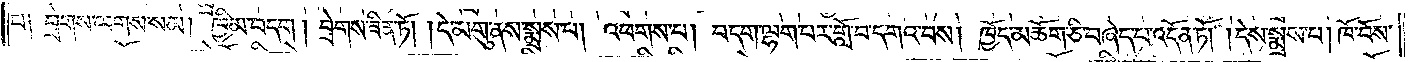པ༑ བྲེགས་ལགས་སམ། ཁྱིམ་བདག། བྲེགས་ཟིན་ཏོ། །དེ་མགུ་ནས་སྨྲས་པ། འཕགས་པ། བདག་ལྷག་པར་གློ་བ་དགའ་བས། ཁྱོད་མཆོག་ཅི་བཞེད་པ་འདོན་ཏོ། །དེས་སྨྲས་པ། ཁོ་བོས་
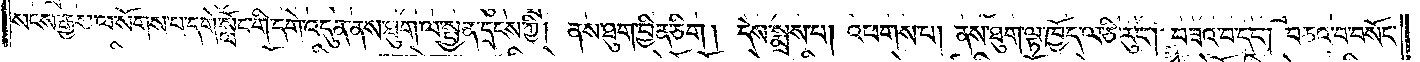སངས་རྒྱས་ལ་སོགས་པ་དགེ་སློང་གི་དགེ་འདུན་ནས་ཐུག་ལ་སྤྱན་དྲངས་ཀྱི། ནས་ཐུག་བྱིན་ཅིག། དེས་སྨྲས་པ། འཕགས་པ། ནས་ཐུག་ལྟ་ཁྱོད་ལ་ཅི་རུང༌། བཟའ་བ་དང༌། བཅའ་བ་བསོད་
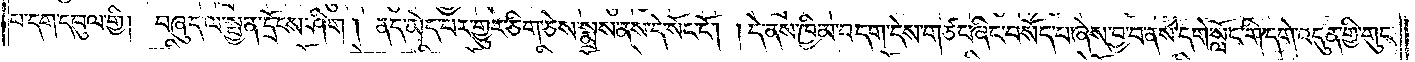པ་དག་དབུལ་གྱི། བཞུད་ལ་སྤྱན་དྲོངས་ཤིག །ནད་མེད་པར་གྱུར་ཅིག་ཅེས་སྨྲས་ནས་དེ་སོང་ངོ༌། །དེ་ནས་ཁྱིམ་བདག་དེས་གཙང་ཞིང་བསོད་པ་ཞེས་བྱ་བ་ནས་དགེ་སློང་གི་དགེ་འདུན་གྱི་གུང་
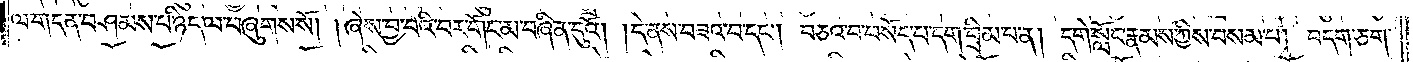ལ་གདན་བཤམས་པ་ཉིད་ལ་བཞུགས་སོ། །ཞེས་བྱ་བའི་བར་གོང་མ་བཞིན་དུའོ། །དེ་ནས་བཟའ་བ་དང༌། བཅའ་བ་བསོད་པ་དག་བྲིམ་པ་ན། དགེ་སློང་རྣམས་ཀྱིས་བསམ་པ། བདག་ཅག་
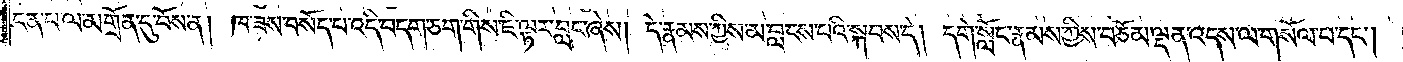ངན་པ་ལ་མགྲོན་དུ་བོས་ན། ཁ་ཟས་བསོད་པ་འདི་བདག་ཅག་གིས་ཇི་ལྟར་བླང་ཞེས། དེ་རྣམས་ཀྱིས་མ་བླངས་པའི་སྐབས་དེ། དགེ་སློང་རྣམས་ཀྱིས་བཅོམ་ལྡན་འདས་ལ་གསོལ་པ་དང༌།
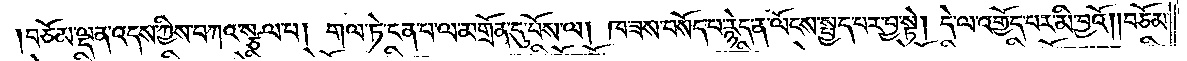བཅོམ་ལྡན་འདས་ཀྱིས་བཀའ་སྩལ་པ། གལ་ཏེ་ངན་པ་ལ་མགྲོན་དུ་པོས་ལ། ཁ་ཟས་བསོད་པ་རྙེད་ན་ལོངས་སྤྱད་པར་བྱ་སྟེ། དེ་ལ་འགྱོད་པར་མི་བྱའོ། །བཅོམ་
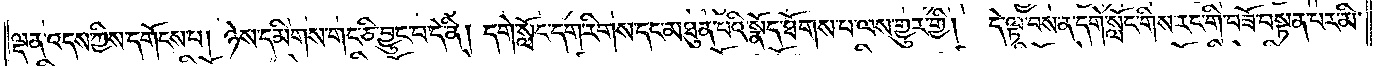ལྡན་འདས་ཀྱིས་དགོངས་པ། ཉེས་དམིགས་གང་ཅི་བྱུང་བ་དེ་ནི། དགེ་སློང་དག་རིགས་དང་མཐུན་པའི་སྣོད་ཐོགས་པ་ལས་གྱུར་གྱི།<gap>དེ་ལྟ་བས་ན་དགེ་སློང་གིས་རང་གི་བཟོ་བསྟན་པར་མི་
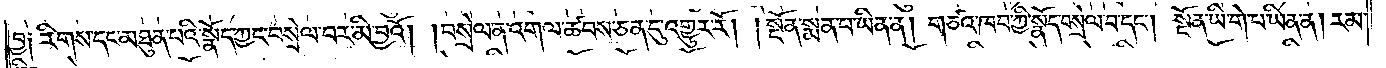བྱ༑ རིགས་དང་མཐུན་པའི་སྣོད་ཀྱང་བསྲེལ་བར་མི་བྱའོ། །བསྲེལ་ན་འགལ་ཚབས་ཅན་དུ་འགྱུར་རོ། །སྔོན་སྨན་པ་ཡིན་ན། གཙའ་ཁབ་ཀྱི་སྣོད་བསྲེལ་བ་དང༌། སྔོན་ཡི་གེ་པ་ཡིན་ན། རམ་
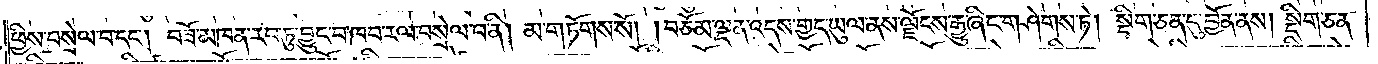ཕྱིས་བསྲེལ་བ་དང༌། བཟོ་མཁན་རབ་ཏུ་བྱུང་བ་ཁབ་རལ་བསྲེལ་བ་ནི། མ་གཏོགས་སོ། །བཅོམ་ལྡན་འདས་གྱད་ཡུལ་ནས་ལྗོངས་རྒྱུ་ཞིང་གཤེགས་ཏེ། སྡིག་ཅན་དུ་བྱོན་ནས། སྡིག་ཅན་
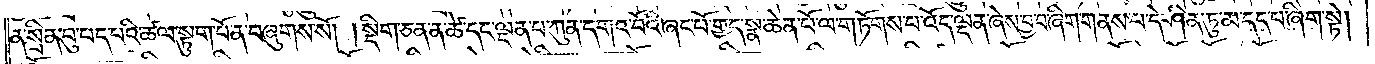ན་སྲིན་བུ་པད་པའི་ཚལ་སྟུག་པོ་ན་བཞུགས་སོ། །སྡིག་ཅན་ན་ཚེ་དང་ལྡན་པ་ཀུན་དགའ་བོའི་ཞང་པོ་གྱད་སྣ་ཆེན་པོ་ལ་གཏོགས་པ་འོད་ལྡན་ཞེས་བྱ་བ་ཞིག་གནས་པ་དེ་ཤིན་ཏུ་མ་དད་པ་ཞིག་སྟེ།
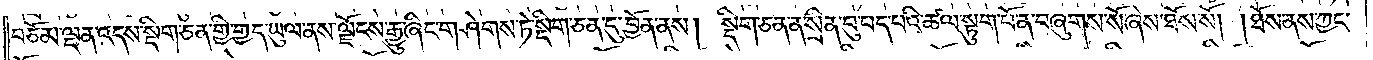བཅོམ་ལྡན་འདས་སྡིག་ཅན་གྱི་གྱད་ཡུལ་ནས་ལྗོངས་རྒྱུ་ཞིང་གཤེགས་ཏེ་སྡིག་ཅན་དུ་བྱོན་ནས། སྡིག་ཅན་ན་སྲིན་བུ་པད་པའི་ཚལ་སྟུག་པོ་ན་བཞུགས་སོ་ཞེས་ཐོས་སོ། །ཐོས་ནས་ཀྱང་
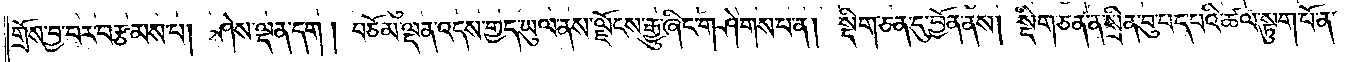གྲོས་བྱ་བར་བརྩམས་པ། ཤེས་ལྡན་དག། བཅོམ་ལྡན་འདས་གྱད་ཡུལ་ནས་ལྗོངས་རྒྱུ་ཞིང་གཤེགས་པ་ན། སྡིག་ཅན་དུ་བྱོན་ནས། སྡིག་ཅན་ན་སྲིན་བུ་པད་པའི་ཚལ་སྟུག་པོ་ན་
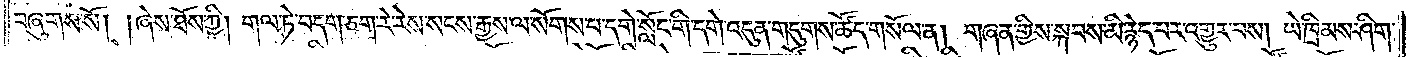བཞུགས་སོ། །ཞེས་ཐོས་ཀྱི། གལ་ཏེ་བདག་ཅག་རེ་རེས་སངས་རྒྱས་ལ་སོགས་པ་དགེ་སློང་གི་དགེ་འདུན་གདུགས་ཚོད་གསོལ་ན། གཞན་གྱིས་སྐབས་མི་རྙེད་པར་འགྱུར་པས། ཡེ་ཁྲིམས་ཤིག་
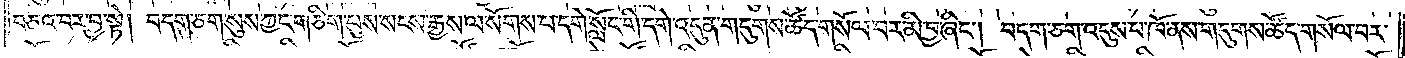བཅའ་བར་བྱ་སྟེ། བདག་ཅག་སུས་ཀྱང་གཅིག་པུས་སངས་རྒྱས་ལ་སོགས་པ་དགེ་སློང་གི་དགེ་འདུན་གདུགས་ཚོད་གསོལ་བར་མི་བྱ་ཞིང༌། བདག་ཅག་འདུས་པ་ཁོ་ནས་གདུགས་ཚོད་གསོལ་བར་
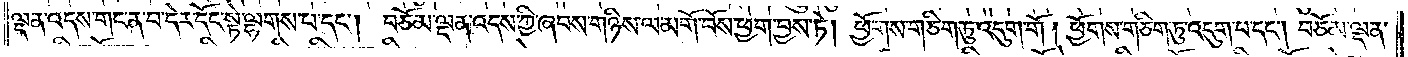ལྡན་འདས་གང་ན་བ་དེར་དོང་སྟེ་ལྷགས་པ་དང༌། བཅོམ་ལྡན་འདས་ཀྱི་ཞབས་གཉིས་ལ་མགོ་བོས་ཕྱག་བྱས་ཏེ། ཕྱོགས་གཅིག་ཏུ་འདུག་གོ། །ཕྱོགས་གཅིག་ཏུ་འདུག་པ་དང༌། བཅོམ་ལྡན་
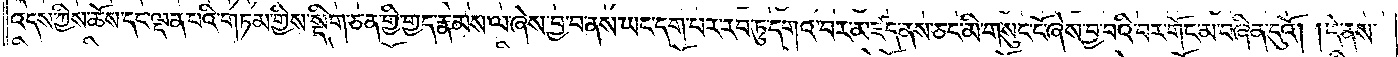འདས་ཀྱིས་ཆོས་དང་ལྡན་པའི་གཏམ་གྱིས་སྡིག་ཅན་གྱི་གྱད་རྣམས་ལ་ཞེས་བྱ་བ་ནས་ཡང་དག་པར་རབ་ཏུ་དགའ་བར་མཛད་ནས་ཅང་མི་གསུང་ངོ་ཞེས་བྱ་བའི་བར་གོང་མ་བཞིན་དུའོ། །དེ་ནས་
